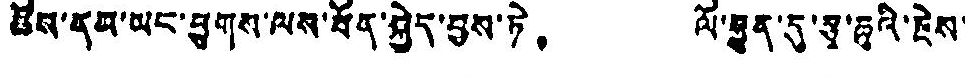ཚོས་ནམ་ཡང་ཕྱུགས་ལས་ཐོན་སྐྱེད་བྱས་ཏེ， ལོ་རྒྱུན་དུ་རྩྭ་ཆུའི་རྗེས་
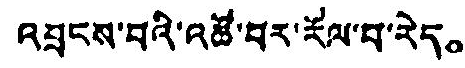འབྲངས་བའི་འཚོ་བར་རོལ་བ་རེད。
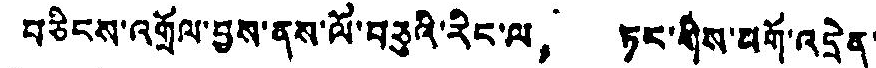བཅིངས་འགྲོལ་བྱས་ནས་ལོ་བཅུའི་རིང་ལ， ཏང་ཤིས་མགོ་འདྲེན་
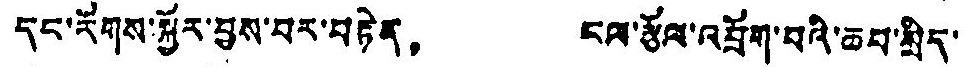དང་རོགས་སྐྱོར་བྱས་པར་བརྟེན， ངལ་རྩོལ་འབྲོག་པའི་ཆབ་སྲིད་
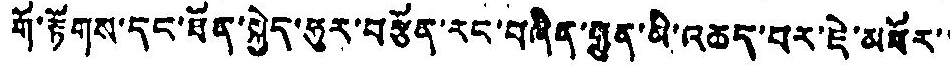གོ་རྟོགས་དང་ཐོན་སྐྱེད་ཧུར་བརྩོན་རང་བཞིན་རྒྱུན་མི་འཆད་པར་ཇེ་མཐོར་་
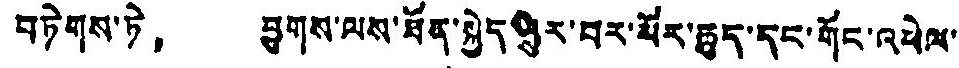བཏེགས་ཏེ， ཕྱུགས་ལས་ཐོན་སྐྱེད་གྲུར་བར་སོར་ཆུད་དང་གོང་འཕེལ་
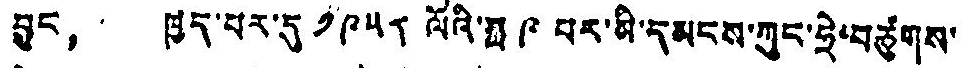བྱུང， ཁྱད་པར་དུ ༡༩༥༨ ལོའི་ཟླ ༩ པར་མི་དམངས་ཀུང་ཧྲེ་བཙུགས་
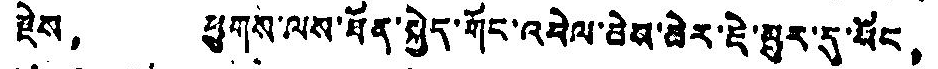རྗེས， ཕྱུགས་ལས་ཐོན་སྐྱེད་གོང་འཕེལ་ཐེས་ཆེར་ཇེ་སུར་དུ་སོང，
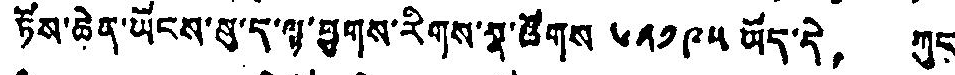ཏོས་ཆེན་ཡོངས་སུ་ད་ལྟ་ཕྱུགས་རིགས་སྣ་ཚོགས ༦༢༡༩༥ ཡོད་དེ， ཀུང
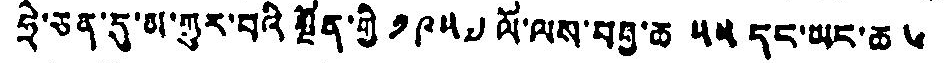ཧྲེ་ཅན་དུ་མ་གུར་བའི སྔོན་གྱི ༡༩༥༧ ལོ་ལས་བརྒྱ་ཆ ༥༥ དང་ཡང་ཆ ༦
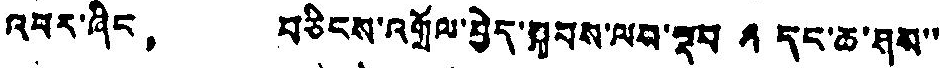འབར་ཞིང， བཅིངས་འགྲོལ་བྱེད་སྐབས་ལབ་སྡབ ༢ དང་ཆ་ཤས་་
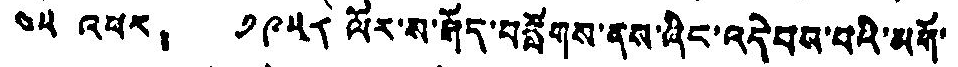༤༥ འཕར， ༡༩༥༨ ལོར་ས་ཤོད་བརློགས་ནས་ཞིང་འདེབས་པའི་མགོ་
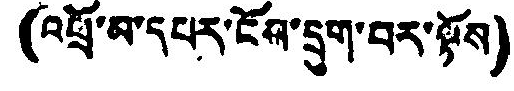(འཕྲོ་མ་དཔར་ངོས་དྲུག་བར་ལྟོས)
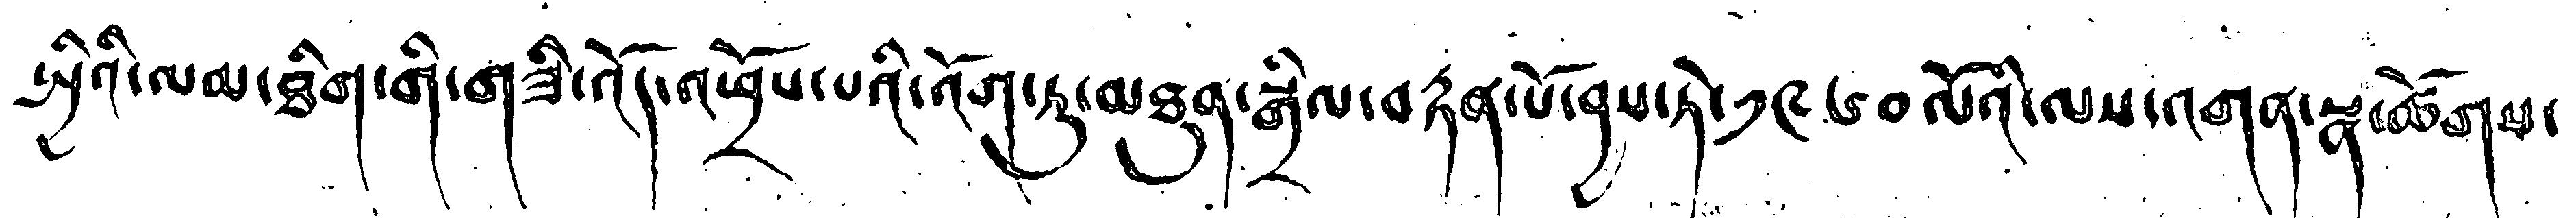སྤྱིའི་ལམ་ཐིག་གི་གཟི་འོད་འཕྲོས་པའི་འོག་ཏུ་མཐུན་སྒྲིལ་བརྟན་པོ་བྱས་ཏེ་༡༩༦༠་ལོའི་ལས་འགན་སྣ་ཚོགས་
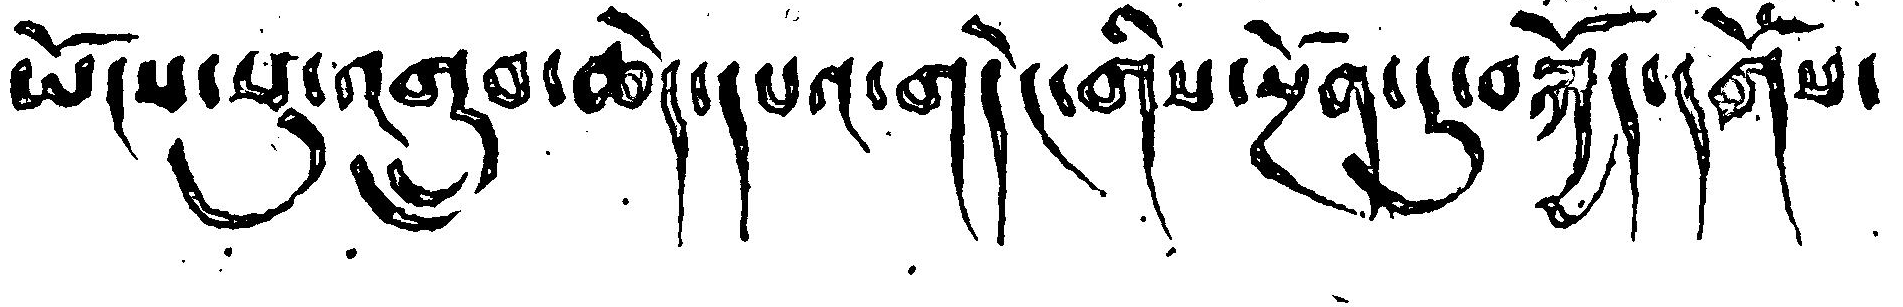ཡོངས་སུ་འགྲུམ་ཆེད་དཔའ་གདེང་གིས་སྔོན་དུ་བསྐྱོད་དགོས་
